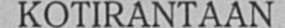KOTIRANTAAN
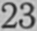23
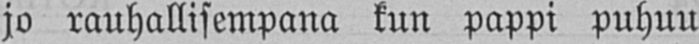jo rauhallisempana kun pappi puhun
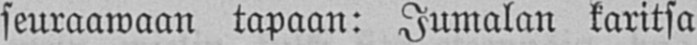seuraawaan tapaan: Jumalan karitsa
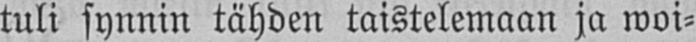tuli synnin tähden taistelemaan ja woi-
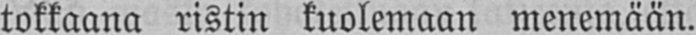tokkaana ristin kuolemaan menemään.
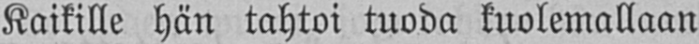Kaikille hän tahtoi tuoda kuolemallaan
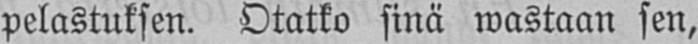pelastuksen. Otatko sinä wastaan sen,
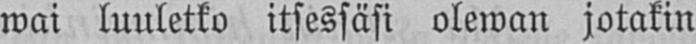wai luuletko itsessäsi olewan jotakin
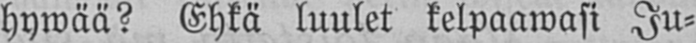hywää? Ehkä luulet kelpaawasi Ju-
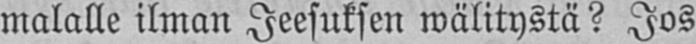malalle ilman Jeesuksen wälitystä? Jos
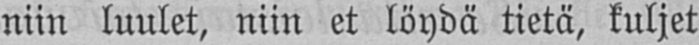niin luulet, niin et löydä tietä, kuljet
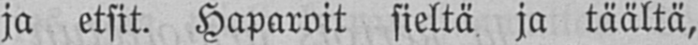ja etsit. Haparoit sieltä ja täältä,
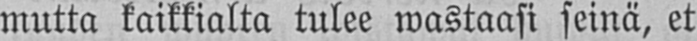mutta kaikkialta tulee wastaasi seinä, et
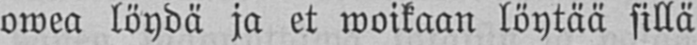owea löydä ja et woikaan löytää sillä
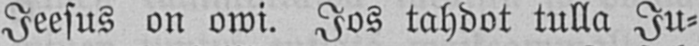Jeesus on owi. Jos tahdot tulla Ju-
